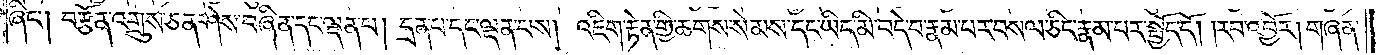ཞིང༌། བརྩོན་འགྲུས་ཅན་ཤེས་བཞིན་དང་ལྡན་པ། དྲན་པ་དང་ལྡན་པས། འཇིག་རྟེན་གྱི་ཆགས་སེམས་དང་ཡིད་མི་བདེ་བ་རྣམ་པར་བསལ་ཅིང་རྣམ་པར་སྤྱོད་དོ། །རབ་འབྱོར། གཞན་
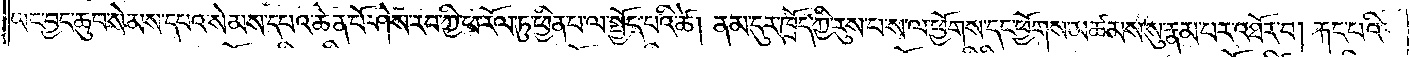ཡང་བྱང་ཆུབ་སེམས་དཔའ་སེམས་དཔའ་ཆེན་པོ་ཤེས་རབ་ཀྱི་ཕ་རོལ་ཏུ་ཕྱིན་པ་ལ་སྤྱོད་པའི་ཚེ། ནམ་དུར་ཁྲོད་ཀྱི་རུས་པ་ས་ལ་ཕྱོགས་དང་ཕྱོགས་མཚམས་སུ་རྣམ་པར་འཐོར་བ། རྐང་པའི་
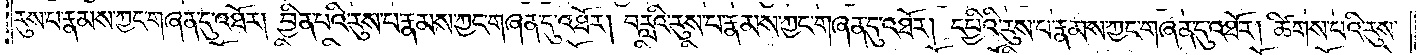རུས་པ་རྣམས་ཀྱང་གཞན་དུ་འཐོར། བྱིན་པའི་རུས་པ་རྣམས་ཀྱང་གཞན་དུ་འཐོར། བརླའི་རུས་པ་རྣམས་ཀྱང་གཞན་དུ་འཐོར། དཔྱིའི་རུས་པ་རྣམས་ཀྱང་གཞན་དུ་འཐོར། ཚིགས་པའི་རུས་
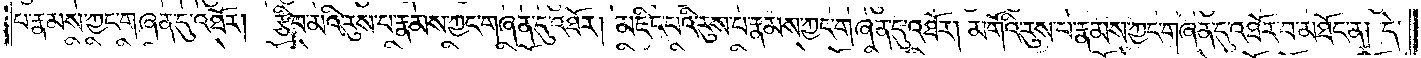པ་རྣམས་ཀྱང་གཞན་དུ་འཐོར། རྩིབ་མའི་རུས་པ་རྣམས་ཀྱང་གཞན་དུ་འཐོར། མཇིང་པའི་རུས་པ་རྣམས་ཀྱང་གཞན་དུ་འཐོར། མགོའི་རུས་པ་རྣམས་ཀྱང་གཞན་དུ་འཐོར་བ་མཐོང་ན། དེ་
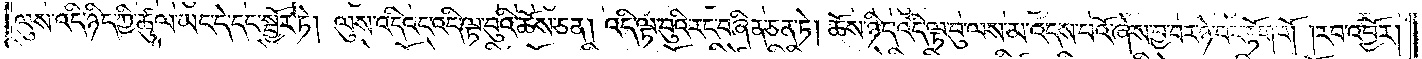ལུས་འདི་ཉིད་ཀྱི་ཚུལ་ཡང་དེ་དང་སྦྱོར་ཏེ། ལུས་འདིའང་འདི་ལྟ་བུའི་ཆོས་ཅན། འདི་ལྟ་བུའི་རང་བཞིན་ཅན་ཏེ། ཆོས་ཉིད་འདི་ལྟ་བུ་ལས་མ་འདས་པའོ་ཞེས་བྱ་བར་ཉེ་བར་རྟོག་གོ །རབ་འབྱོར།
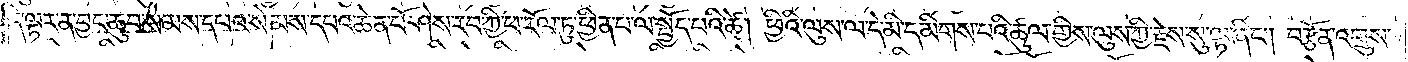དེ་ལྟར་ན་བྱང་ཆུབ་སེམས་དཔའ་སེམས་དཔའ་ཆེན་པོ་ཤེས་རབ་ཀྱི་ཕ་རོལ་ཏུ་ཕྱིན་པ་ལ་སྤྱོད་པའི་ཚེ། ཕྱིའི་ལུས་ལ་དེ་མི་དམིགས་པའི་ཚུལ་གྱིས་ལུས་ཀྱི་རྗེས་སུ་ལྟ་ཞིང༌། བརྩོན་འགྲུས་
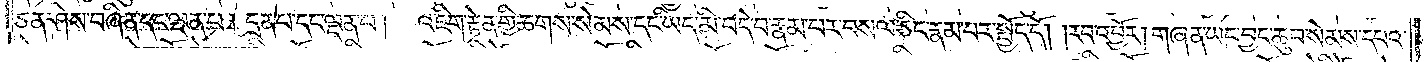ཅན་ཤེས་བཞིན་དང་ལྡན་པ། དྲན་པ་དང་ལྡན་པས། འཇིག་རྟེན་གྱི་ཆགས་སེམས་དང་ཡིད་མི་བདེ་བ་རྣམ་པར་བསལ་ཅིང་རྣམ་པར་སྤྱོད་དོ། །རབ་འབྱོར། གཞན་ཡང་བྱང་ཆུབ་སེམས་དཔའ་
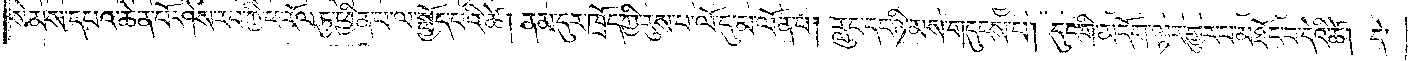སེམས་དཔའ་ཆེན་པོ་ཤེས་རབ་ཀྱི་ཕ་རོལ་ཏུ་ཕྱིན་པ་ལ་སྤྱོད་པའི་ཚེ། ནམ་དུར་ཁྲོད་ཀྱི་རུས་པ་ལོ་དུ་མ་ལོན་པ། རླུང་དང་ཉི་མས་གདུངས་པ། དུང་གི་མདོག་ལྟར་གྱུར་པ་མཐོང་བ་དེའི་ཚེ། དེ་
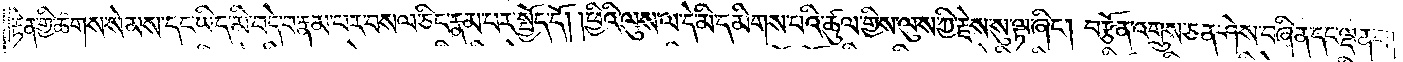རྟེན་གྱི་ཆགས་སེམས་དང་ཡིད་མི་བདེ་བ་རྣམ་པར་བསལ་ཅིང་རྣམ་པར་སྤྱོད་དོ། །ཕྱིའི་ལུས་ལ་དེ་མི་དམིགས་པའི་ཚུལ་གྱིས་ལུས་ཀྱི་རྗེས་སུ་ལྟ་ཞིང༌། བརྩོན་འགྲུས་ཅན་ཤེས་བཞིན་དང་ལྡན་པ།
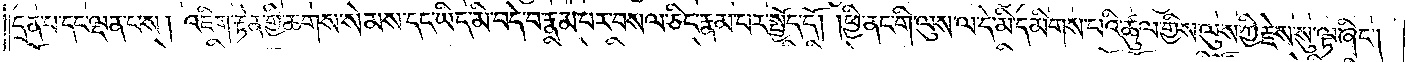དྲན་པ་དང་ལྡན་པས། འཇིག་རྟེན་གྱི་ཆགས་སེམས་དང་ཡིད་མི་བདེ་བ་རྣམ་པར་བསལ་ཅིང་རྣམ་པར་སྤྱོད་དོ། །ཕྱི་ནང་གི་ལུས་ལ་དེ་མི་དམིགས་པའི་ཚུལ་གྱིས་ལུས་ཀྱི་རྗེས་སུ་ལྟ་ཞིང༌།
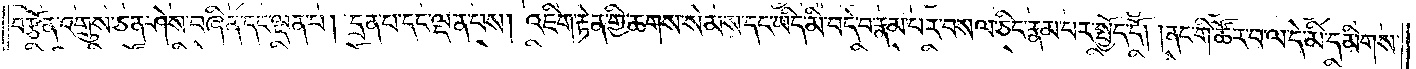བརྩོན་འགྲུས་ཅན་ཤེས་བཞིན་དང་ལྡན་པ། དྲན་པ་དང་ལྡན་པས། འཇིག་རྟེན་གྱི་ཆགས་སེམས་དང་ཡིད་མི་བདེ་བ་རྣམ་པར་བསལ་ཅིང་རྣམ་པར་སྤྱོད་དོ། །ནང་གི་ཚོར་བ་ལ་དེ་མི་དམིགས་
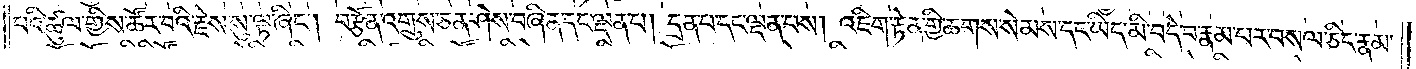པའི་ཚུལ་གྱིས་ཚོར་བའི་རྗེས་སུ་ལྟ་ཞིང༌། བརྩོན་འགྲུས་ཅན་ཤེས་བཞིན་དང་ལྡན་པ་དྲན་པ་དང་ལྡན་པས། འཇིག་རྟེན་གྱི་ཆགས་སེམས་དང་ཡིད་མི་བདེ་བ་རྣམ་པར་བསལ་ཅིང་རྣམ་
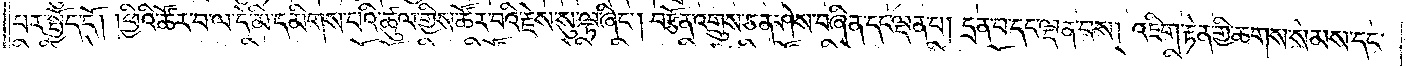པར་སྤྱོད་དོ། །ཕྱིའི་ཚོར་བ་ལ་དེ་མི་དམིགས་པའི་ཚུལ་གྱིས་ཚོར་བའི་རྗེས་སུ་ལྟ་ཞིང༌། བརྩོན་འགྲུས་ཅན་ཤེས་བཞིན་དང་ལྡན་པ་དྲན་པ་དང་ལྡན་པས། འཇིག་རྟེན་གྱི་ཆགས་སེམས་དང་
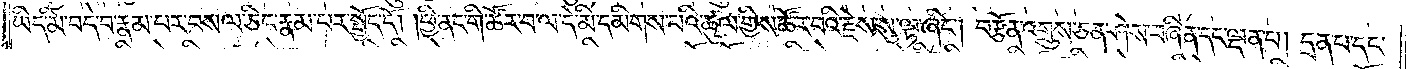ཡིད་མི་བདེ་བ་རྣམ་པར་བསལ་ཅིང་རྣམ་པར་སྤྱོད་དོ། །ཕྱི་ནང་གི་ཚོར་བ་ལ་དེ་མི་དམིགས་པའི་ཚུལ་གྱིས་ཚོར་བའི་རྗེས་སུ་ལྟ་ཞིང༌། བརྩོན་འགྲུས་ཅན་ཤེས་བཞིན་དང་ལྡན་པ། དྲན་པ་དང་
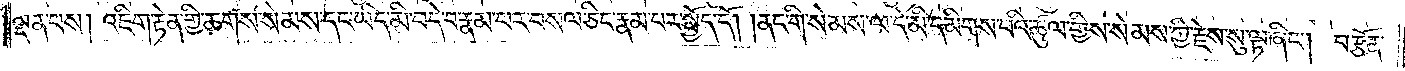ལྡན་པས། འཇིག་རྟེན་གྱི་ཆགས་སེམས་དང་ཡིད་མི་བདེ་བ་རྣམ་པར་བསལ་ཅིང་རྣམ་པར་སྤྱོད་དོ། །ནང་གི་སེམས་ལ་དེ་མི་དམིགས་པའི་ཚུལ་གྱིས་སེམས་ཀྱི་རྗེས་སུ་ལྟ་ཞིང༌། བརྩོན་
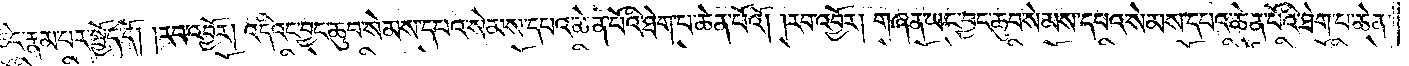ཅིང་རྣམ་པར་སྤྱོད་དོ། །རབ་འབྱོར། འདིའང་བྱང་ཆུབ་སེམས་དཔའ་སེམས་དཔའ་ཆེན་པོའི་ཐེག་པ་ཆེན་པོའོ། །རབ་འབྱོར། གཞན་ཡང་བྱང་ཆུབ་སེམས་དཔའ་སེམས་དཔའ་ཆེན་པོའི་ཐེག་པ་ཆེན་
